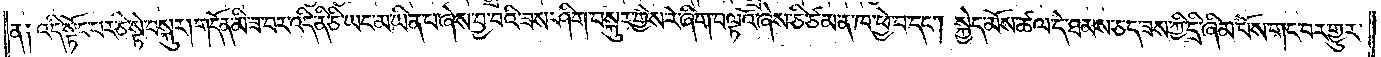ན༑ འདི་སྟོང་པར་ཅི་སྟེ་བསྐུར།གདོན་མི་ཟ་བར་འདི་ནི་ཅི་ཡང་མ་ཡིན་པ་ཞེས་བྱ་བའི་ཟས་ཤིག་བསྐུར་གྱིས་རེ་ཞིག་བལྟའོ་ཞེས་ཅི་ཙམ་ན་ཁ་ཕྱེ་བ་དང༌། སྐྱེད་མོས་ཚལ་དེ་ཐམས་ཅད་ཟས་ཀྱི་དྲི་ཞིམ་པོས་གང་བར་གྱུར་
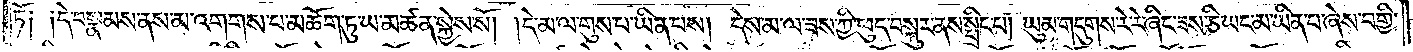ཏོ༑ །དེ་བསྣམས་ནས་མ་འགགས་པ་མཆོག་ཏུ་ཡ་མཚན་སྐྱེས་སོ། །དེ་མ་ལ་གུས་པ་ཡིན་པས། དེས་མ་ལ་ཟས་ཀྱི་ཕུད་བསྐུར་ནས་སྤྲིང་པ། ཡུམ་གདུགས་རེ་རེ་ཞིང་ཟས་ཅི་ཡང་མ་ཡིན་པ་ཞེས་བགྱི་
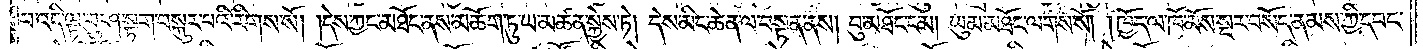བ་འདི་ལྟ་བུ་ཤ་སྟག་བསྐུར་པའི་རིགས་སོ། །དེས་ཀྱང་མཐོང་ནས་མཆོག་ཏུ་ཡ་མཚན་སྐྱེས་ཏེ། དེས་མིང་ཆེན་ལ་བསྟན་ནས། བུ་མཐོང་ངམ། ཡུམ་མཐོང་ལགས་སོ། །ཁྱོད་ལ་ཁོ་མོས་སྔར་བསོད་ནམས་ཀྱི་དབང་
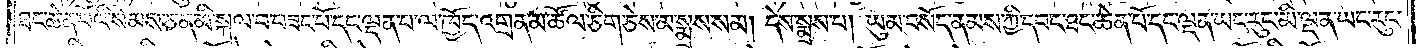ཐང་ཆེན་པོའི་སེམས་ཅན་མི་སྐལ་བ་བཟང་པོ་དང་ལྡན་པ་ལ་ཁྱོད་འགྲན་མ་ཚོལ་ཅིག་ཅེས་མ་སྨྲས་སམ། དེས་སྨྲས་པ། ཡུམ་བསོད་ནམས་ཀྱི་དབང་ཐང་ཆེན་པོ་དང་ལྡན་ཡང་རུང་མི་ལྡན་ཡང་རུང་
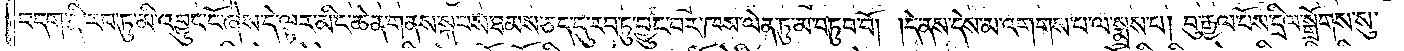བདག་ནི་རབ་ཏུ་མི་འབྱུང་ངོ་ཞེས་དེ་ལྟར་མིང་ཆེན་གནས་སྐབས་ཐམས་ཅད་དུ་རབ་ཏུ་བྱུང་བར་ཁས་ལེན་ཏུ་མ་བཏུབ་བོ། །དེ་ནས་དེས་མ་འགགས་པ་ལ་སྨྲས་པ། བུ་རྒྱལ་པོས་དྲིལ་སྒྲོགས་སུ་
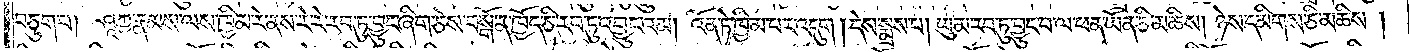བཅུག་པ། ཤཱཀྱ་རྣམས་ལས་ཁྱིམ་རེ་ནས་རེ་རེ་རབ་ཏུ་བྱུང་ཞིག་ཅེས་བསྒོ་ན་ཁྱོད་ཅི་རབ་ཏུ་འབྱུང་འམ། འོན་ཏེ་ཁྱིམ་པར་འདུག །དེས་སྨྲས་པ། ཡུམ་རབ་ཏུ་བྱུང་བ་ལ་ཕན་ཡོན་ཅི་མཆིས། ཉེས་དམིགས་ཅི་མཆིས།
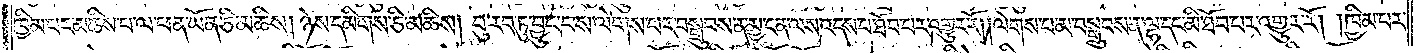ཁྱིམ་པར་མཆིས་པ་ལ་ཕན་ཡོན་ཅི་མཆིས། ཉེས་དམིགས་ཅི་མཆིས། བུ་རབ་ཏུ་བྱུང་བས་ལེགས་པར་བསྒྲུབས་ན་མྱ་ངན་ལས་འདས་པ་ཐོབ་པར་འགྱུར་རོ། །ལེགས་པ་མ་བསྒྲུབས་ན་ལྷ་དང་མི་ཐོབ་པར་འགྱུར་རོ། །ཁྱིམ་པར་
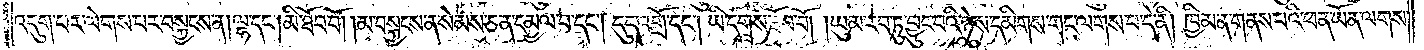འདུག་པར་ལེགས་པར་བསྐྱངས་ན། ལྷ་དང༌། མི་ཐོབ་བོ། །མ་བསྐྱངས་ན་སེམས་ཅན་དམྱལ་བ་དང༌། དུད་འགྲོ་དང༌། ཡི་དྭགས་ཐོབ་བོ། །ཡུམ་རབ་ཏུ་བྱུང་བའི་ཉེས་དམིགས་གང་ལགས་པ་དེ་ནི། ཁྱིམ་ན་གནས་པའི་ཕན་ཡོན་ལགས་
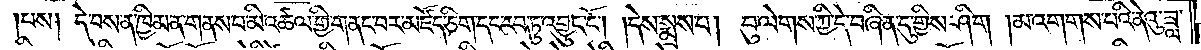པས། དེ་བས་ན་ཁྱིམ་ན་གནས་པ་མི་འཚལ་གྱི་གནང་བར་མཛོད་ཅིག་དང་རབ་ཏུ་འབྱུང་ངོ༌། །དེས་སྨྲས་པ། བུ་ལེགས་ཀྱི་དེ་བཞིན་དུ་གྱིས་ཤིག །མ་འགགས་པའི་ནེའུ་ཟླ་
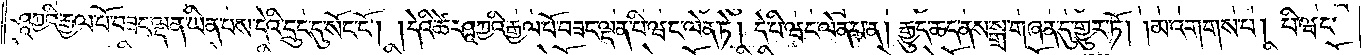ཤཱཀྱའི་རྒྱལ་པོ་བཟང་ལྡན་ཡིན་པས་དེའི་དྲུང་དུ་སོང་ངོ༌། །དེའི་ཚེ་ཤཱཀྱའི་རྒྱལ་པོ་བཟང་ལྡན་པི་ཝང་ལེན་ཏེ། དེ་པི་ཝང་ལེན་པ་ན། རྒྱུད་ཆད་ནས་སྒྲ་གཞན་དུ་གྱུར་ཏོ། །མ་འགགས་པ། པི་ཝང་
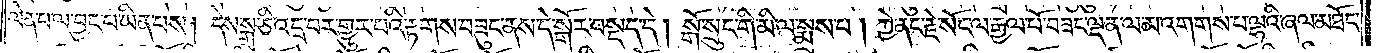ལེན་པ་ལ་བྱང་བ་ཡིན་པས། དེས་སྒྲ་ཅི་འདྲ་བར་གྱུར་པའི་རྟགས་བཟུང་ནས་དེ་སྒོར་བསྡད་དེ། སྒོ་སྲུང་གི་མི་ལ་སྨྲས་པ། ཀྱེ་ནང་རྗེ་སོང་ལ་རྒྱལ་པོ་བཟང་ལྡན་ལ་མ་འགགས་པ་ལྷའི་ཞལ་མཐོང་
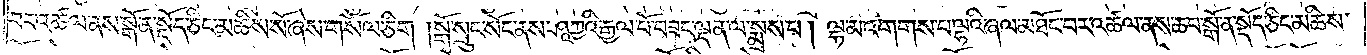པར་འཚལ་ནས་སྒོ་ན་སྡོད་ཅིང་མཆིས་སོ་ཞེས་གསོལ་ཅིག །སྒོ་སྲུང་སོང་ནས་ཤཱཀྱའི་རྒྱལ་པོ་བཟང་ལྡན་ལ་སྨྲས་པ། ལྷ་མ་འགགས་པ་ལྷའི་ཞལ་མཐོང་བར་འཚལ་ནས་ཆབ་སྒོ་ན་སྡོད་ཅིང་མཆིས་
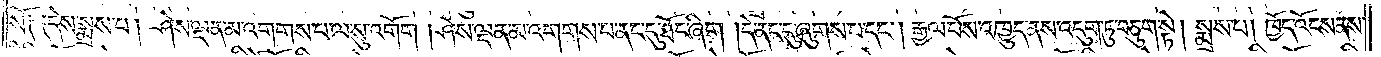སོ༑ ༑དེས་སྨྲས་པ། ཤེས་ལྡན་མ་འགགས་པ་ལ་སུ་འགོག །ཤེས་ལྡན་མ་འགགས་པ་ནང་དུ་ཐོང་ཞིག །དེ་ནང་དུ་ཞུགས་པ་དང༌། རྒྱལ་པོས་འཁྱུད་ནས་འདུག་ཏུ་བཅུག་སྟེ། སྨྲས་པ། ཁྱོད་འོངས་ནས་
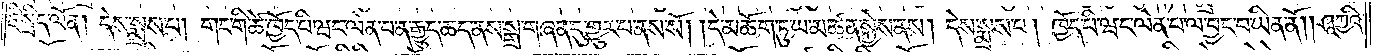ཇི་སྲིད་ལོན། དེས་སྨྲས་པ། གང་གི་ཚེ་ཁྱོད་པི་ཝང་ལེན་པ་ན་རྒྱུད་ཆད་ནས་སྒྲ་གཞན་དུ་གྱུར་པ་ནས་སོ། །དེ་མཆོག་ཏུ་ཡ་མཚན་སྐྱེས་ནས། དེས་སྨྲས་པ། ཁྱོད་པི་ཝང་ལེན་པ་ལ་བྱང་བ་ཡིན་ནོ། །ཤཱཀྱའི་
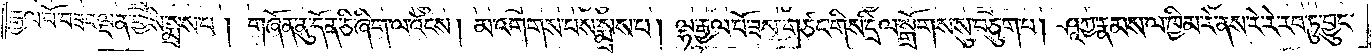རྒྱལ་པོ་བཟང་ལྡན་གྱིས་སྨྲས་པ། གཞོན་ནུ་དོན་ཅི་ཞིག་ལ་འོངས། མ་འགགས་པས་སྨྲས་པ། ལྷ་རྒྱལ་པོ་ཟས་གཙང་གིས་དྲིལ་སྒྲོགས་སུ་བཅུག་པ། ཤཱཀྱ་རྣམས་ལ་ཁྱིམ་རེ་ནས་རེ་རེ་རབ་ཏུ་བྱུང་
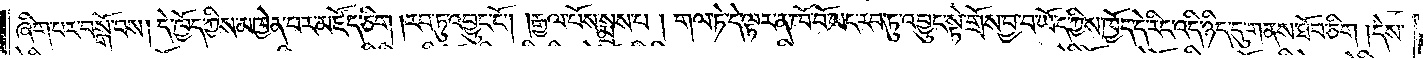ཞིག་པར་བསྒོ་བས། དེ་ཁྱོད་ཀྱིས་མཁྱེན་པར་མཛོད་ཅིག །རབ་ཏུ་འབྱུང་ངོ༌། །རྒྱལ་པོས་སྨྲས་པ། གལ་ཏེ་དེ་ལྟར་ན་ཁོ་བོ་ཡང་རབ་ཏུ་འབྱུང་སྟེ་གྲོས་བྱ་བ་ཡོད་ཀྱིས་ཁྱོད་དེ་རིང་འདི་ཉིད་དུ་གནས་ཐོབ་ཅིག །དེས་
